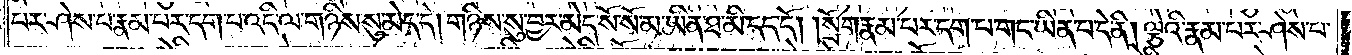པར་ཤེས་པ་རྣམ་པར་དག་པ་འདི་ལ་གཉིས་སུ་མེད་དེ། གཉིས་སུ་བྱར་མེད་སོ་སོ་མ་ཡིན་ཐ་མི་དད་དོ། །སྲོག་རྣམ་པར་དག་པ་གང་ཡིན་པ་དེ་ནི། ལྕེའི་རྣམ་པར་ཤེས་པ་
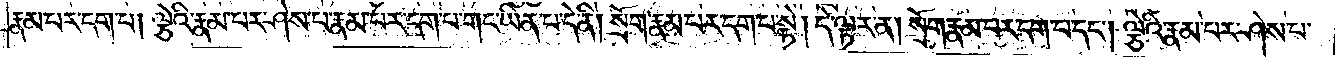རྣམ་པར་དག་པ། ལྕེའི་རྣམ་པར་ཤེས་པ་རྣམ་པར་དག་པ་གང་ཡིན་པ་དེ་ནི། སྲོག་རྣམ་པར་དག་པ་སྟེ། དེ་ལྟར་ན། སྲོག་རྣམ་པར་དག་པ་དང༌། ལྕེའི་རྣམ་པར་ཤེས་པ་
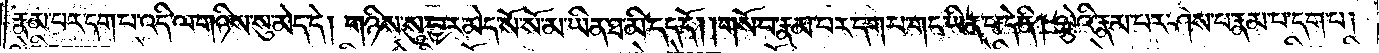རྣམ་པར་དག་པ་འདི་ལ་གཉིས་སུ་མེད་དེ། གཉིས་སུ་བྱར་མེད་སོ་སོ་མ་ཡིན་ཐ་མི་དད་དོ། །གསོ་བ་རྣམ་པར་དག་པ་གང་ཡིན་པ་དེ་ནི། ལྕེའི་རྣམ་པར་ཤེས་པ་རྣམ་པར་དག་པ།
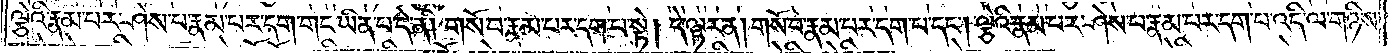ལྕེའི་རྣམ་པར་ཤེས་པ་རྣམ་པར་དག་པ་གང་ཡིན་པ་དེ་ནི། གསོ་བ་རྣམ་པར་དག་པ་སྟེ། དེ་ལྟར་ན། གསོ་བ་རྣམ་པར་དག་པ་དང༌། ལྕེའི་རྣམ་པར་ཤེས་པ་རྣམ་པར་དག་པ་འདི་ལ་གཉིས་
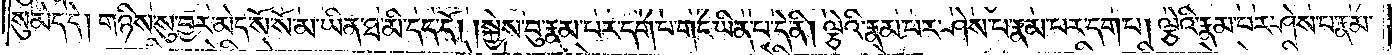སུ་མེད་དེ། གཉིས་སུ་བྱར་མེད་སོ་སོ་མ་ཡིན་ཐ་མི་དད་དོ། །སྐྱེས་བུ་རྣམ་པར་དག་པ་གང་ཡིན་པ་དེ་ནི། ལྕེའི་རྣམ་པར་ཤེས་པ་རྣམ་པར་དག་པ། ལྕེའི་རྣམ་པར་ཤེས་པ་རྣམ་
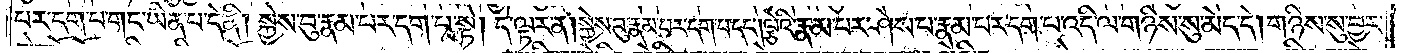པར་དག་པ་གང་ཡིན་པ་དེ་ནི། སྐྱེས་བུ་རྣམ་པར་དག་པ་སྟེ། དེ་ལྟར་ན། སྐྱེས་བུ་རྣམ་པར་དག་པ་དང༌། ལྕེའི་རྣམ་པར་ཤེས་པ་རྣམ་པར་དག་པ་འདི་ལ་གཉིས་སུ་མེད་དེ། གཉིས་སུ་བྱར་
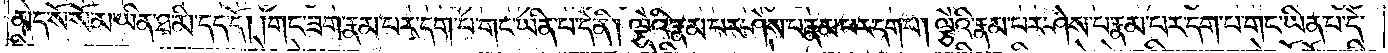མེད་སོ་སོ་མ་ཡིན་ཐ་མི་དད་དོ། །གང་ཟག་རྣམ་པར་དག་པ་གང་ཡིན་པ་དེ་ནི། ལྕེའི་རྣམ་པར་ཤེས་པ་རྣམ་པར་དག་པ། ལྕེའི་རྣམ་པར་ཤེས་པ་རྣམ་པར་དག་པ་གང་ཡིན་པ་དེ་
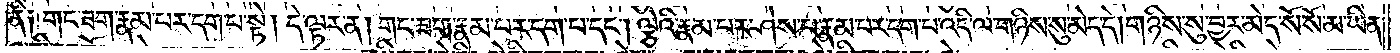ནི༑ གང་ཟག་རྣམ་པར་དག་པ་སྟེ། དེ་ལྟར་ན། གང་ཟག་རྣམ་པར་དག་པ་དང༌། ལྕེའི་རྣམ་པར་ཤེས་པ་རྣམ་པར་དག་པ་འདི་ལ་གཉིས་སུ་མེད་དེ། གཉིས་སུ་བྱར་མེད་སོ་སོ་མ་ཡིན་
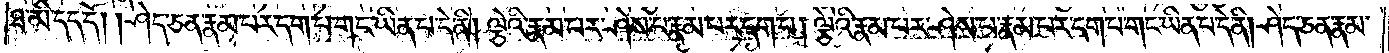ཐ་མི་དད་དོ། །ཤེད་ཅན་རྣམ་པར་དག་པ་གང་ཡིན་པ་དེ་ནི། ལྕེའི་རྣམ་པར་ཤེས་པ་རྣམ་པར་དག་པ། ལྕེའི་རྣམ་པར་ཤེས་པ་རྣམ་པར་དག་པ་གང་ཡིན་པ་དེ་ནི། ཤེད་ཅན་རྣམ་
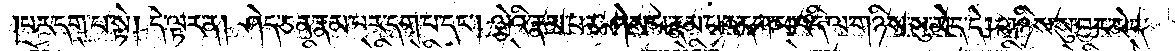པར་དག་པ་སྟེ། དེ་ལྟར་ན། ཤེད་ཅན་རྣམ་པར་དག་པ་དང༌། ལྕེའི་རྣམ་པར་ཤེས་པ་རྣམ་པར་དག་པ་འདི་ལ་གཉིས་སུ་མེད་དེ། གཉིས་སུ་བྱར་མེད་
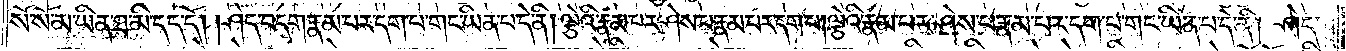སོ་སོ་མ་ཡིན་ཐ་མི་དད་དོ། །ཤེད་བདག་རྣམ་པར་དག་པ་གང་ཡིན་པ་དེ་ནི། ལྕེའི་རྣམ་པར་ཤེས་པ་རྣམ་པར་དག་པ། ལྕེའི་རྣམ་པར་ཤེས་པ་རྣམ་པར་དག་པ་གང་ཡིན་པ་དེ་ནི། ཤེད་
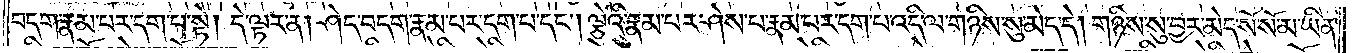བདག་རྣམ་པར་དག་པ་སྟེ། དེ་ལྟར་ན། ཤེད་བདག་རྣམ་པར་དག་པ་དང༌། ལྕེའི་རྣམ་པར་ཤེས་པ་རྣམ་པར་དག་པ་འདི་ལ་གཉིས་སུ་མེད་དེ། གཉིས་སུ་བྱར་མེད་སོ་སོ་མ་ཡིན་
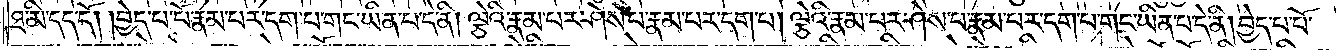ཐ་མི་དད་དོ། །བྱེད་པ་པོ་རྣམ་པར་དག་པ་གང་ཡིན་པ་དེ་ནི། ལྕེའི་རྣམ་པར་ཤེས་པ་རྣམ་པར་དག་པ། ལྕེའི་རྣམ་པར་ཤེས་པ་རྣམ་པར་དག་པ་གང་ཡིན་པ་དེ་ནི། བྱེད་པ་པོ་
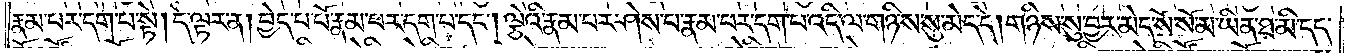རྣམ་པར་དག་པ་སྟེ། དེ་ལྟར་ན། བྱེད་པ་པོ་རྣམ་པར་དག་པ་དང༌། ལྕེའི་རྣམ་པར་ཤེས་པ་རྣམ་པར་དག་པ་འདི་ལ་གཉིས་སུ་མེད་དེ། གཉིས་སུ་བྱར་མེད་སོ་སོ་མ་ཡིན་ཐ་མི་དད་
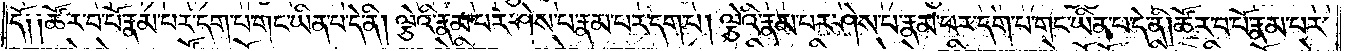དོ༑ ༑ཚོར་བ་པོ་རྣམ་པར་དག་པ་གང་ཡིན་པ་དེ་ནི། ལྕེའི་རྣམ་པར་ཤེས་པ་རྣམ་པར་དག་པ། ལྕེའི་རྣམ་པར་ཤེས་པ་རྣམ་པར་དག་པ་གང་ཡིན་པ་དེ་ནི། ཚོར་བ་པོ་རྣམ་པར་
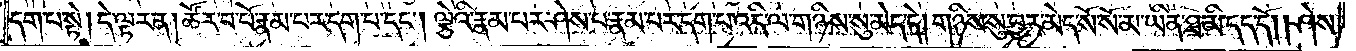དག་པ་སྟེ། དེ་ལྟར་ན། ཚོར་བ་པོ་རྣམ་པར་དག་པ་དང༌། ལྕེའི་རྣམ་པར་ཤེས་པ་རྣམ་པར་དག་པ་འདི་ལ་གཉིས་སུ་མེད་དེ། གཉིས་སུ་བྱར་མེད་སོ་སོ་མ་ཡིན་ཐ་མི་དད་དོ། །ཤེས་
